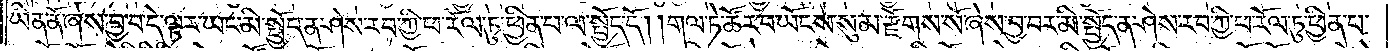ཡིན་ནོ་ཞེས་བྱ་བ་དེ་ལྟར་ཡང་མི་སྤྱོད་ན་ཤེས་རབ་ཀྱི་ཕ་རོལ་ཏུ་ཕྱིན་པ་ལ་སྤྱོད་དོ། །གལ་ཏེ་ཚོར་བ་ཡོངས་སུ་མ་རྫོགས་སོ་ཞེས་བྱ་བར་མི་སྤྱོད་ན་ཤེས་རབ་ཀྱི་ཕ་རོལ་ཏུ་ཕྱིན་པ་
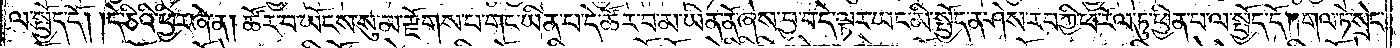ལ་སྤྱོད་དོ། །དེ་ཅིའི་ཕྱིར་ཞེ་ན། ཚོར་བ་ཡོངས་སུ་མ་རྫོགས་པ་གང་ཡིན་པ་དེ་ཚོར་བ་མ་ཡིན་ནོ་ཞེས་བྱ་བ་དེ་ལྟར་ཡང་མི་སྤྱོད་ན་ཤེས་རབ་ཀྱི་ཕ་རོལ་ཏུ་ཕྱིན་པ་ལ་སྤྱོད་དོ། །གལ་ཏེ་སྲེད་
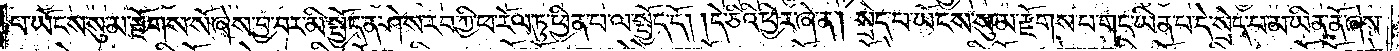པ་ཡོངས་སུ་མ་རྫོགས་སོ་ཞེས་བྱ་བར་མི་སྤྱོད་ན་ཤེས་རབ་ཀྱི་ཕ་རོལ་ཏུ་ཕྱིན་པ་ལ་སྤྱོད་དོ། །དེ་ཅིའི་ཕྱིར་ཞེ་ན། སྲེད་པ་ཡོངས་སུ་མ་རྫོགས་པ་གང་ཡིན་པ་དེ་སྲེད་པ་མ་ཡིན་ནོ་ཞེས་
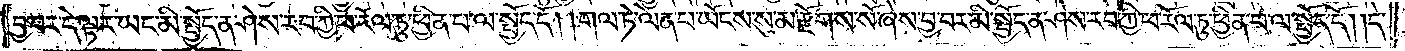བྱ་བ་དེ་ལྟར་ཡང་མི་སྤྱོད་ན་ཤེས་རབ་ཀྱི་ཕ་རོལ་ཏུ་ཕྱིན་པ་ལ་སྤྱོད་དོ། །གལ་ཏེ་ལེན་པ་ཡོངས་སུ་མ་རྫོགས་སོ་ཞེས་བྱ་བར་མི་སྤྱོད་ན་ཤེས་རབ་ཀྱི་ཕ་རོལ་ཏུ་ཕྱིན་པ་ལ་སྤྱོད་དོ། །དེ་
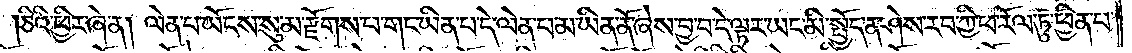ཅིའི་ཕྱིར་ཞེ་ན། ལེན་པ་ཡོངས་སུ་མ་རྫོགས་པ་གང་ཡིན་པ་དེ་ལེན་པ་མ་ཡིན་ནོ་ཞེས་བྱ་བ་དེ་ལྟར་ཡང་མི་སྤྱོད་ན་ཤེས་རབ་ཀྱི་ཕ་རོལ་ཏུ་ཕྱིན་པ་
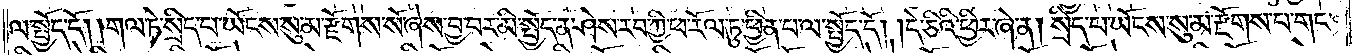ལ་སྤྱོད་དོ། །གལ་ཏེ་སྲིད་པ་ཡོངས་སུ་མ་རྫོགས་སོ་ཞེས་བྱ་བར་མི་སྤྱོད་ན་ཤེས་རབ་ཀྱི་ཕ་རོལ་ཏུ་ཕྱིན་པ་ལ་སྤྱོད་དོ། །དེ་ཅིའི་ཕྱིར་ཞེ་ན། སྲིད་པ་ཡོངས་སུ་མ་རྫོགས་པ་གང་
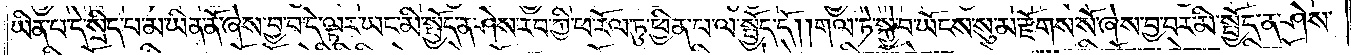ཡིན་པ་དེ་སྲིད་པ་མ་ཡིན་ནོ་ཞེས་བྱ་བ་དེ་ལྟར་ཡང་མི་སྤྱོད་ན་ཤེས་རབ་ཀྱི་ཕ་རོལ་ཏུ་ཕྱིན་པ་ལ་སྤྱོད་དོ། །གལ་ཏེ་སྐྱེ་བ་ཡོངས་སུ་མ་རྫོགས་སོ་ཞེས་བྱ་བར་མི་སྤྱོད་ན་ཤེས་
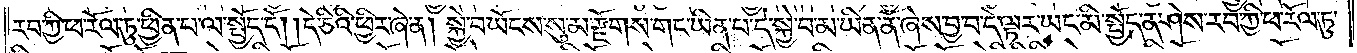རབ་ཀྱི་ཕ་རོལ་ཏུ་ཕྱིན་པ་ལ་སྤྱོད་དོ། །དེ་ཅིའི་ཕྱིར་ཞེ་ན། སྐྱེ་བ་ཡོངས་སུ་མ་རྫོགས་པ་གང་ཡིན་པ་དེ་སྐྱེ་བ་མ་ཡིན་ནོ་ཞེས་བྱ་བ་དེ་ལྟར་ཡང་མི་སྤྱོད་ན་ཤེས་རབ་ཀྱི་ཕ་རོལ་ཏུ་
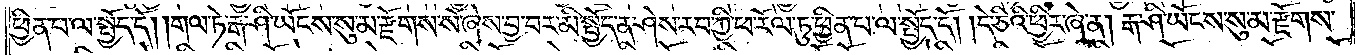ཕྱིན་པ་ལ་སྤྱོད་དོ། །གལ་ཏེ་རྒ་ཤི་ཡོངས་སུ་མ་རྫོགས་སོ་ཞེས་བྱ་བར་མི་སྤྱོད་ན་ཤེས་རབ་ཀྱི་ཕ་རོལ་ཏུ་ཕྱིན་པ་ལ་སྤྱོད་དོ། །དེ་ཅིའི་ཕྱིར་ཞེ་ན། རྒ་ཤི་ཡོངས་སུ་མ་རྫོགས་
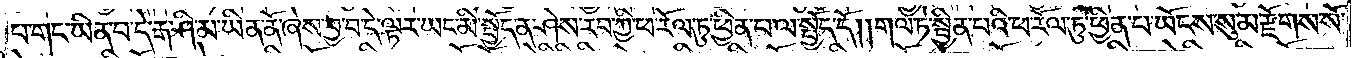པ་གང་ཡིན་པ་དེ་རྒ་ཤི་མ་ཡིན་ནོ་ཞེས་བྱ་བ་དེ་ལྟར་ཡང་མི་སྤྱོད་ན་ཤེས་རབ་ཀྱི་ཕ་རོལ་ཏུ་ཕྱིན་པ་ལ་སྤྱོད་དོ། །གལ་ཏེ་སྦྱིན་པའི་ཕ་རོལ་ཏུ་ཕྱིན་པ་ཡོངས་སུ་མ་རྫོགས་སོ་
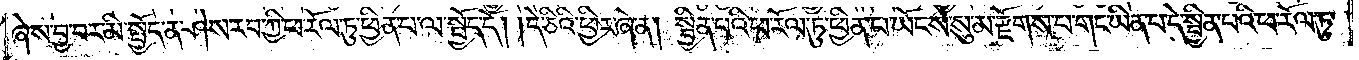ཞེས་བྱ་བར་མི་སྤྱོད་ན་ཤེས་རབ་ཀྱི་ཕ་རོལ་ཏུ་ཕྱིན་པ་ལ་སྤྱོད་དོ། །དེ་ཅིའི་ཕྱིར་ཞེ་ན། སྦྱིན་པའི་ཕ་རོལ་ཏུ་ཕྱིན་པ་ཡོངས་སུ་མ་རྫོགས་པ་གང་ཡིན་པ་དེ་སྦྱིན་པའི་ཕ་རོལ་ཏུ་
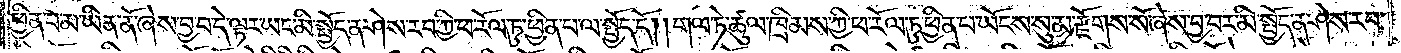ཕྱིན་པ་མ་ཡིན་ནོ་ཞེས་བྱ་བ་དེ་ལྟར་ཡང་མི་སྤྱོད་ན་ཤེས་རབ་ཀྱི་ཕ་རོལ་ཏུ་ཕྱིན་པ་ལ་སྤྱོད་དོ། །གལ་ཏེ་ཚུལ་ཁྲིམས་ཀྱི་ཕ་རོལ་ཏུ་ཕྱིན་པ་ཡོངས་སུ་མ་རྫོགས་སོ་ཞེས་བྱ་བར་མི་སྤྱོད་ན་ཤེས་རབ་
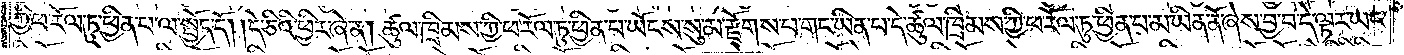ཀྱི་ཕ་རོལ་ཏུ་ཕྱིན་པ་ལ་སྤྱོད་དོ། །དེ་ཅིའི་ཕྱིར་ཞེ་ན། ཚུལ་ཁྲིམས་ཀྱི་ཕ་རོལ་ཏུ་ཕྱིན་པ་ཡོངས་སུ་མ་རྫོགས་པ་གང་ཡིན་པ་དེ་ཚུལ་ཁྲིམས་ཀྱི་ཕ་རོལ་ཏུ་ཕྱིན་པ་མ་ཡིན་ནོ་ཞེས་བྱ་བ་དེ་ལྟར་ཡང་
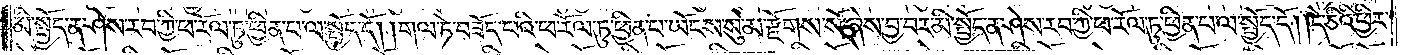མི་སྤྱོད་ན་ཤེས་རབ་ཀྱི་ཕ་རོལ་ཏུ་ཕྱིན་པ་ལ་སྤྱོད་དོ། །གལ་ཏེ་བཟོད་པའི་ཕ་རོལ་ཏུ་ཕྱིན་པ་ཡོངས་སུ་མ་རྫོགས་སོ་ཞེས་བྱ་བར་མི་སྤྱོད་ན་ཤེས་རབ་ཀྱི་ཕ་རོལ་ཏུ་ཕྱིན་པ་ལ་སྤྱོད་དོ། །དེ་ཅིའི་ཕྱིར་
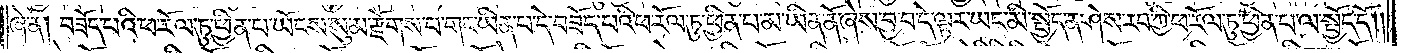ཞེ་ན། བཟོད་པའི་ཕ་རོལ་ཏུ་ཕྱིན་པ་ཡོངས་སུ་མ་རྫོགས་པ་གང་ཡིན་པ་དེ་བཟོད་པའི་ཕ་རོལ་ཏུ་ཕྱིན་པ་མ་ཡིན་ནོ་ཞེས་བྱ་བ་དེ་ལྟར་ཡང་མི་སྤྱོད་ན་ཤེས་རབ་ཀྱི་ཕ་རོལ་ཏུ་ཕྱིན་པ་ལ་སྤྱོད་དོ། །
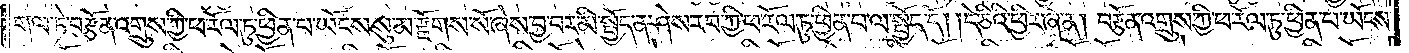གལ་ཏེ་བརྩོན་འགྲུས་ཀྱི་ཕ་རོལ་ཏུ་ཕྱིན་པ་ཡོངས་སུ་མ་རྫོགས་སོ་ཞེས་བྱ་བར་མི་སྤྱོད་ན་ཤེས་རབ་ཀྱི་ཕ་རོལ་ཏུ་ཕྱིན་པ་ལ་སྤྱོད་དོ། །དེ་ཅིའི་ཕྱིར་ཞེ་ན། བརྩོན་འགྲུས་ཀྱི་ཕ་རོལ་ཏུ་ཕྱིན་པ་ཡོངས་
